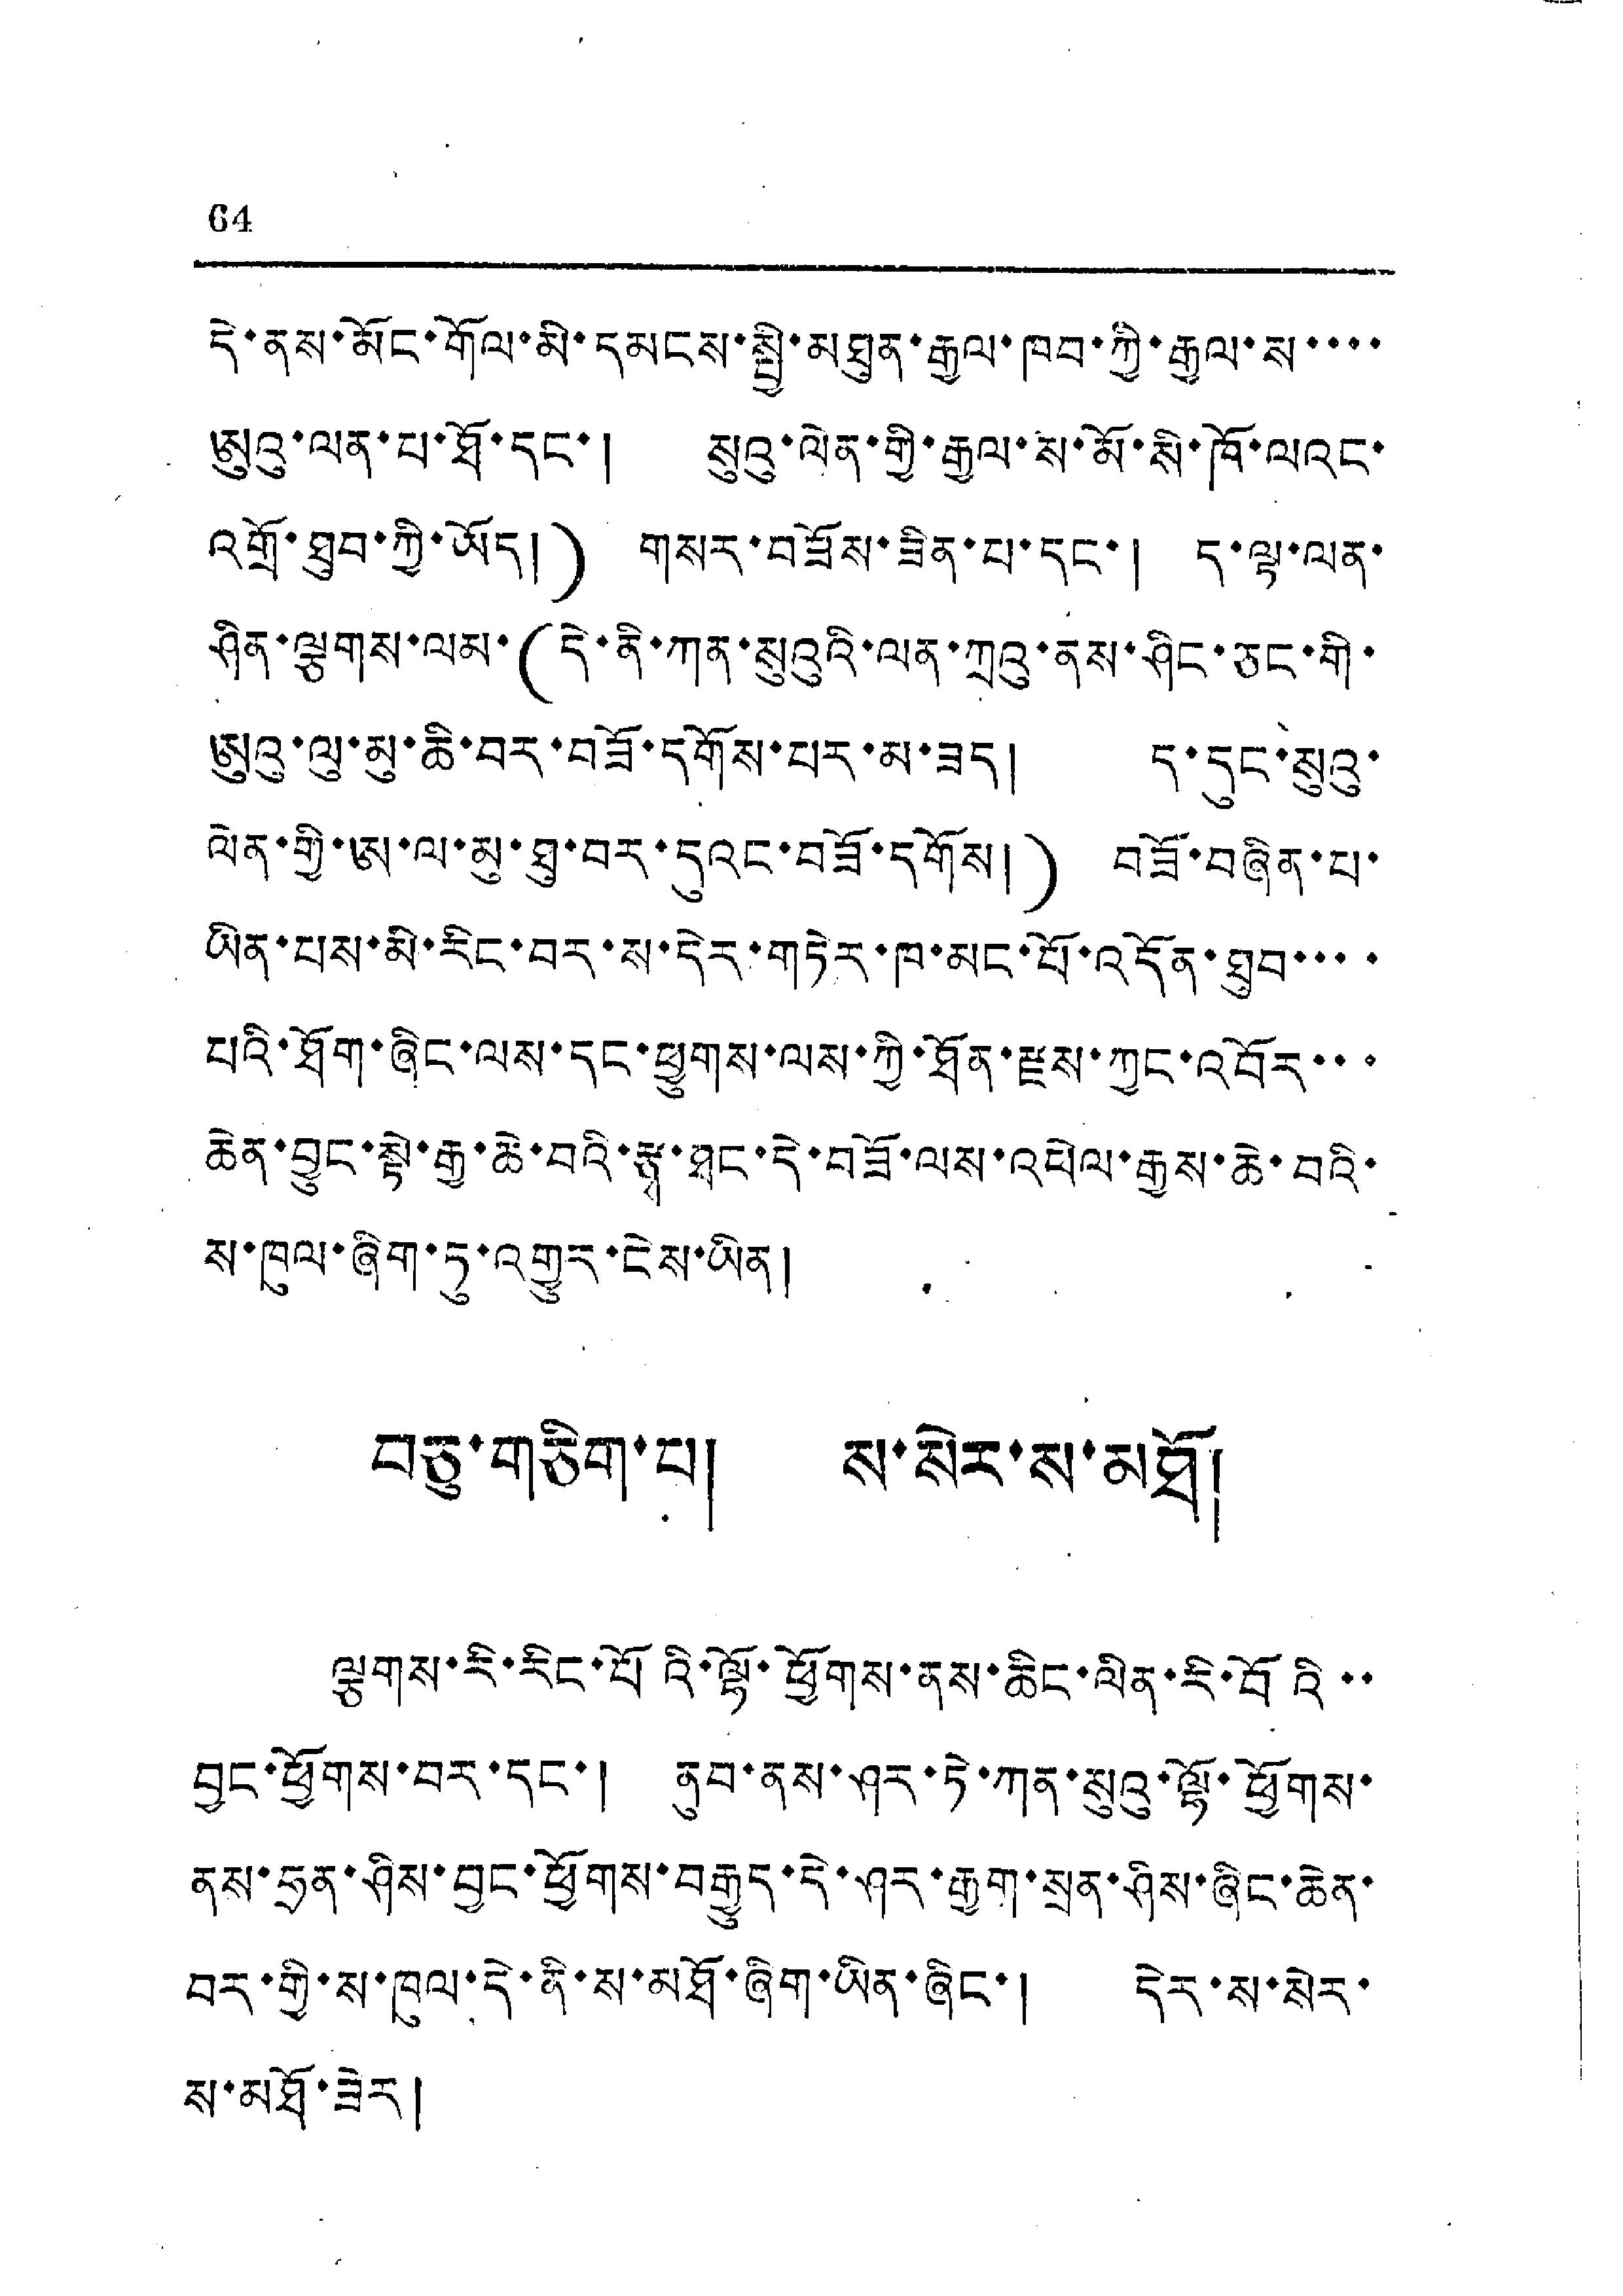64
དེ་ནས་མོང་གོལ་མི་དམངས་སྤྱི་མཐུན་རྒྱལ་ཁབ་ཀྱི་རྒྱལ་ས་་་་
ཨུའུ་ལན་པ་ཐོ་དང་། སུའུ་ལེན་གྱི་རྒྱལ་ས་མོ་སི་ཁོ་ལའང་
འགྲོ་ཐུབ་ཀྱི་ཡོད།) གསར་བཟོས་ཟིན་པ་དང་། ད་ལྟ་ལན་
ཤིན་ལྕགས་ལམ་(དེ་ནི་ཀན་སུའུའི་ལན་ཀྲའུ་ནས་ཤིང་ཅང་གི་
ཨུའུ་ལུ་མུ་ཆི་བར་བཟོ་དགོས་པར་མ་ཟད། ད་དུང་སུའུ་
ལེན་གྱི་ཨ་ལ་མུ་ཐུ་བར་དུའང་བཟོ་དགོས།) བཟོ་བཞིན་པ་
ཡིན་པས་མི་རིང་བར་ས་དེར་གཏེར་ཁ་མང་པོ་འདོན་ཐུབ་་་་་
པའི་ཐོག་ཞིང་ལས་དང་ཕྱུགས་ལས་ཀྱི་ཐོན་རྫས་ཀྱང་འབོར་་་་
ཆེན་བྱུང་སྟེ་རྒྱ་ཆེ་བའི་རྩྭ་ཐང་དེ་བཟོ་ལས་འཕེལ་རྒྱས་ཆེ་བའི་
ས་ཁུལ་ཞིག་ཏུ་འགྱུར་ངེས་ཡིན།
བཅུ་གཅིག་པ། ས་སེར་ས་མཐོ།
ལྕགས་རི་རིང་པོའི་ལྷོ་ཕྱོགས་ནས་ཆིང་ལིན་རི་བོའི་་
བྱང་ཕྱོགས་བར་དང་། ནུབ་ནས་ཤར་ཏེ་ཀན་སུའུ་ལྷོ་ཕྱོགས་
ནས་ཧྲན་ཤིས་བྱང་ཕྱོགས་བརྒྱུད་དེ་ཤར་རྒྱག་སྲན་ཤིས་ཞིང་ཆེན་
བར་གྱི་ས་ཁུལ་དེ་ནི་ས་མཐོ་ཞིག་ཡིན་ཞིང་། དེར་ས་སེར་
ས་མཐོ་ཟེར།
